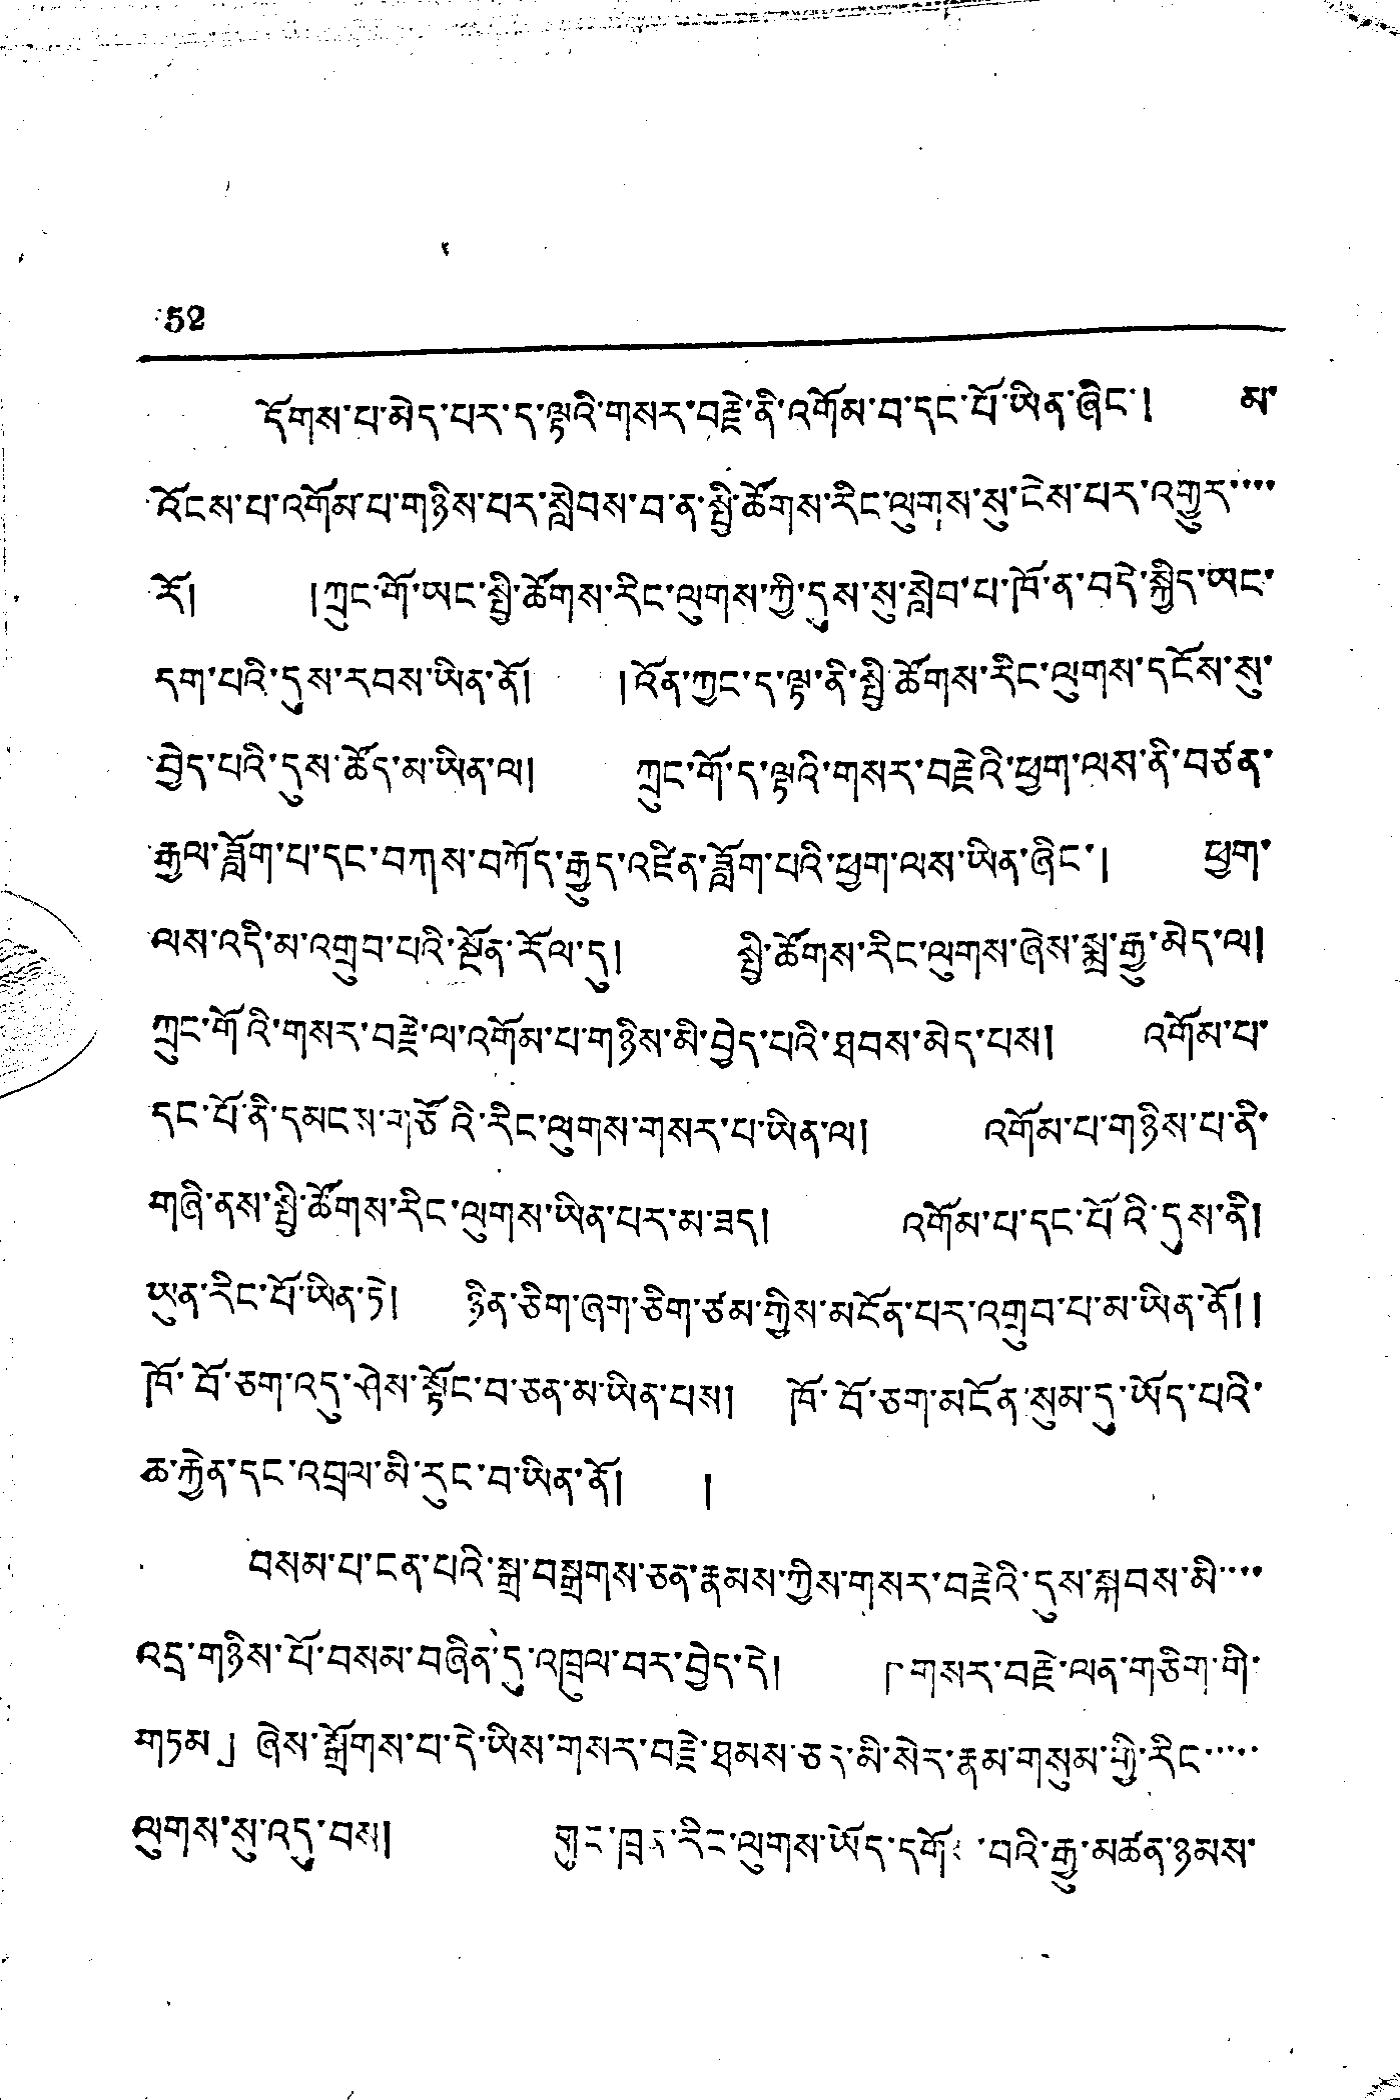52
དོགས་པ་མེད་པར་ད་ལྟའི་གསར་བརྗེ་ནི་འགོམ་བ་དང་པོ་ཡིན་ཞིང་། མ་
འོངས་པ་འགོམ་པ་གཉིས་པར་སླེབས་བ་ན་སྤྱི་ཚོགས་རིང་ལུགས་སུ་ངེས་པར་འགྱུར་་་་
རོ། །ཀྲུང་གོ་ཡང་སྤྱི་ཚོགས་རིང་ལུགས་ཀྱི་དུས་སུ་སླེབ་པ་ཁོ་ན་བདེ་སྐྱིད་ཡང་
དག་པའི་དུས་རབས་ཡིན་ནོ། །འོན་ཀྱང་ད་ལྟ་ནི་སྤྱི་ཚོགས་རིང་ལུགས་དངོས་སུ་
བྱེད་པའི་དུས་ཚོད་མ་ཡིན་ལ། ཀྲུང་གོ་ད་ལྟའི་གསར་བརྗེའི་ཕྱག་ལས་ནི་བཙན་
རྒྱལ་ཟློག་པ་དང་བཀས་བཀོད་རྒྱུད་འཛིན་ཟློག་པའི་ཕྱུག་ལས་ཡིན་ཞིང་། ཕྱག་
ལས་འདི་མ་འགྲུབ་པའི་སྔོན་རོལ་དུ། སྤྱི་ཚོགས་རིང་ལུགས་ཞེས་སྨྲ་རྒྱུ་མེད་ལ།
ཀྲུང་གོའི་གསར་བརྗེ་ལ་འགོམ་པ་གཉིས་མི་བྱེད་པའི་ཐབས་མེད་པས། འགོམ་པ་
དང་པོ་ནི་དམངས་གཙོའི་རིང་ལུགས་གསར་པ་ཡིན་ལ། འགོམ་པ་གཉིས་པ་ནི་
གཞི་ནས་སྤྱི་ཚོགས་རིང་ལུགས་ཡིན་པར་མ་ཟད། འགོམ་པ་དང་པོའི་དུས་ནི།
ཡུན་རིང་པོ་ཡིན་ཏེ། ཉིན་ཅིག་ཞག་ཅིག་ཙམ་གྱིས་མངོན་པར་འགྲུབ་པ་མ་ཡིན་ནོ།།
ཁོ་བོ་ཅག་འདུ་ཤེས་སྟོང་བ་ཅན་མ་ཡིན་པས། ཁོ་བོ་ཅག་མངོན་སུམ་དུ་ཡོད་པའི་
ཆ་རྐྱེན་དང་འབྲལ་མི་རུང་བ་ཡིན་ནོ། །
བསམ་པ་ངན་པའི་སྒྲ་བསྒྲགས་ཅན་རྣམས་ཀྱིས་གསར་བརྗེའི་དུས་སྐབས་མི་་་་
འདྲ་གཉིས་པོ་བསམ་བཞིན་དུ་འཁྲུལ་བར་བྱེད་དེ། 「གསར་བརྗེ་ལན་གཅིག་གི་
གཏམ」ཞེས་སྒྲོགས་བ་དེ་ཡིས་གསར་བརྗེ་ཐམས་ཅན་མི་སེར་རྣམ་གསུམ་གྱི་རིང་་་་་
ལུགས་སུ་འདུ་བས། གུང་ཁྲན་རིང་ལུགས་ཡོད་དགོན་བའི་རྒྱུ་མཚན་ཉམས་
